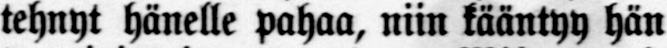tehnyt hänelle pahaa, niin kääntyy hän
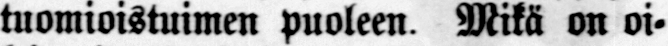tuomioistuimen puoleen. Mikä on oi-
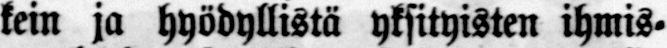kein ja hyödyllistä yksityisten ihmis-
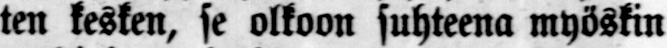ten kesken, se olkoon suhteena myöskin
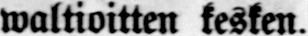waltioitten kesken.
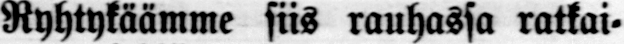Ryhtykäämme siis rauhassa ratkai-
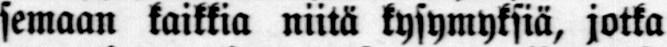semaan kaikkia niitä kysymyksiä, jotka
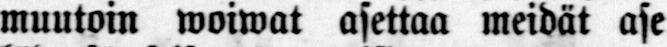muutoin woiwat asettaa meidät ase
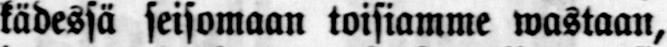kädessä seisomaan toisiamme wastaan,
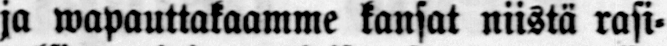ja wapauttakaamme kansat niistä rasi-
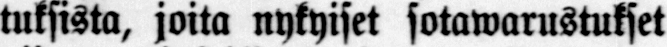tuksista, joita nykyiset sotawarustukset
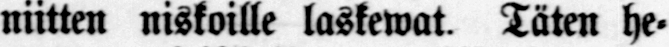niitten niskoille laskewat. Täten he-
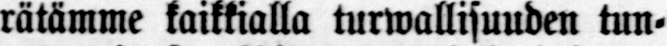rätämme kaikkialla turwallisuuden tun-
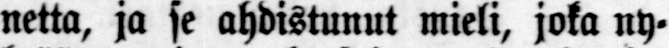netta, ja se ahdistunut mieli, joka ny-
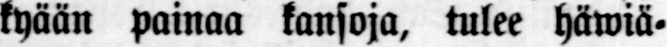kyään painaa kansoja, tulee häwiä-
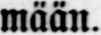mään.
